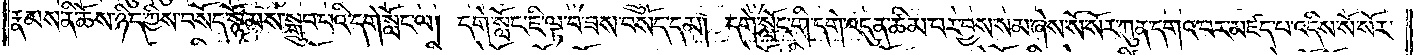རྣམས་ནི་ཆོས་ཉིད་ཀྱིས་བསོད་སྙོམས་སྒྲུབ་པའི་དགེ་སློང་ལ། དགེ་སློང་ཇི་ལྟ་བ་ཟས་བསོད་དམ། དགེ་སློང་གི་དགེ་འདུན་ཚིམ་པར་བྱས་སམ་ཞེས་སོ་སོར་ཀུན་དགའ་བར་མཛད་པ་འདིས་སོ་སོར་
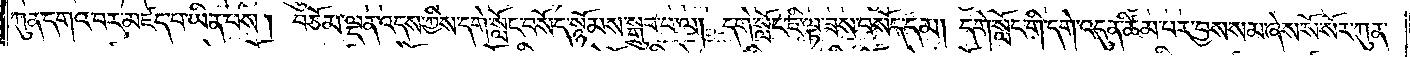ཀུན་དགའ་བར་མཛད་པ་ཡིན་པས། བཅོམ་ལྡན་འདས་ཀྱིས་དགེ་སློང་བསོད་སྙོམས་སྒྲུབ་པ་ལ། དགེ་སློང་ཇི་ལྟ་ཟས་བསོད་དམ། དགེ་སློང་གི་དགེ་འདུན་ཚིམ་པར་བྱས་སམ་ཞེས་སོ་སོར་ཀུན་
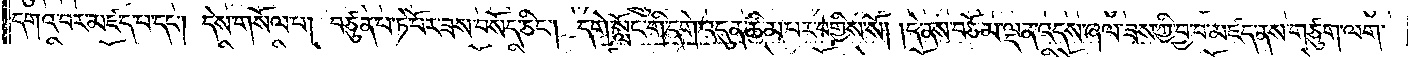དགའ་བར་མཛད་པ་དང༌། དེས་གསོལ་བ། བཙུན་པ་ཏེ་པོར་ཟས་བསོད་ཅིང༌། དགེ་སློང་གི་དགེ་འདུན་ཚིམ་པར་བགྱིས་སོ། །དེ་ནས་བཅོམ་ལྡན་འདས་ཞལ་ཟས་ཀྱི་བྱ་བ་མཛད་ནས་གཙུག་ལག་
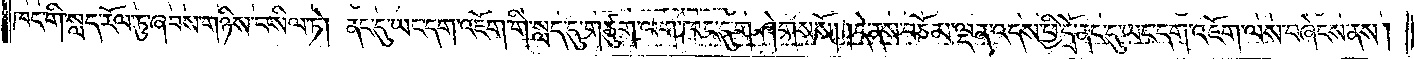ཁང་གི་སླད་རོལ་ཏུ་ཞབས་གཉིས་བསིལ་ཏེ། ནང་དུ་ཡང་དག་འཇོག་གི་སླད་དུ་གཙུག་ལག་ཁང་དུ་གཤེགས་སོ། །དེ་ནས་བཅོམ་ལྡན་འདས་ཕྱི་དྲོ་ནང་དུ་ཡང་དག་འཇོག་ལས་བཞེངས་ནས།
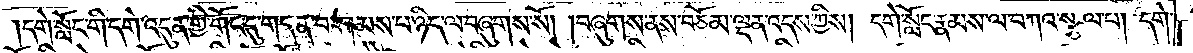དགེ་སློང་གི་དགེ་འདུན་གྱི་གོང་དུ་གདན་བཤམས་པ་ཉིད་ལ་བཞུགས་སོ། །བཞུགས་ནས་བཅོམ་ལྡན་འདས་ཀྱིས། དགེ་སློང་རྣམས་ལ་བཀའ་སྩལ་པ། དགེ་
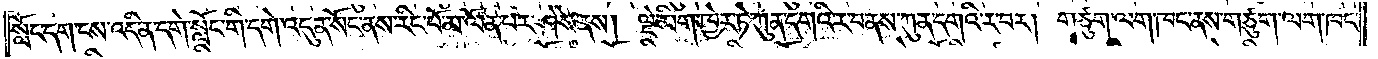སློང་དག་ངས་འདི་ན་དགེ་སློང་གི་དགེ་འདུན་སོང་ནས་རིང་པོ་མ་ལོན་པར་ཤེས་ནས། ལྡེ་མིག་ཁྱེར་ཏེ་ཀུན་དགའི་ར་བ་ནས་ཀུན་དགའི་ར་བར། གཙུག་ལག་ཁང་ནས་གཙུག་ལག་ཁང་
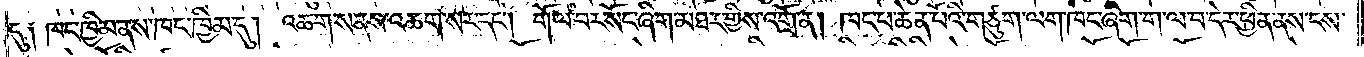དུ། ཁང་ཁྱིམ་ནས་ཁང་ཁྱིམ་དུ། འཆག་ས་ནས་འཆག་སར་དང༌། གོལ་བར་སོང་ཞིག་མཐར་གྱིས་འགྲོ་ན། ཁང་པ་ཆེན་པོའི་གཙུག་ལག་ཁང་ཞིག་ག་ལ་བ་དེར་ཕྱིན་ནས་ངས་
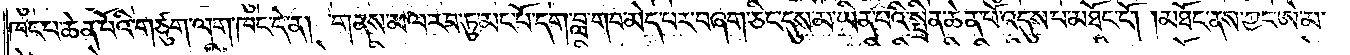ཁང་པ་ཆེན་པོའི་གཙུག་ལག་ཁང་དེ་ན། གནས་མལ་རབ་ཏུ་མང་པོ་དག་བླ་གབ་མེད་པར་བཞག་ཅིང་དུས་མ་ཡིན་པའི་སྤྲིན་ཆེན་པོ་འདུས་པ་མཐོང་ངོ༌། །མཐོང་ནས་ཀྱང་ཨེ་མ་
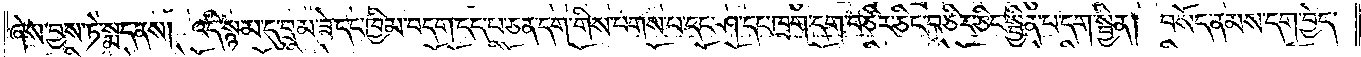ཞེས་བྱས་ཏེ་སྨད་ནས། འདི་སྙམ་དུ་བྲམ་ཟེ་དང་ཁྱིམ་བདག་དད་པ་ཅན་དག་གིས་པགས་པ་དང་ཤ་དང་ཁྲག་དག་བཙིར་ཅིང་བཙིར་ཅིང་སྦྱིན་པ་དག་སྦྱིན། བསོད་ནམས་དག་བྱེད་
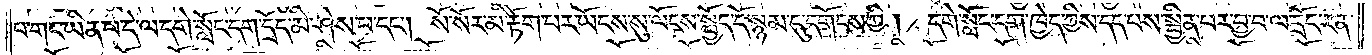པ་གང་ཡིན་པ་དེ་ལ་དགེ་སློང་དག་དྲོད་མི་ཤེས་པ་དང༌། སོ་སོར་མི་རྟོག་པར་ཡོངས་སུ་ལོངས་སྤྱོད་དོ་སྙམ་དུ་དགོངས་ཀྱི། དགེ་སློང་དག་ཁྱེད་ཀྱིས་དད་པས་སྦྱིན་པར་བྱ་བ་ལ་དྲོད་རན་
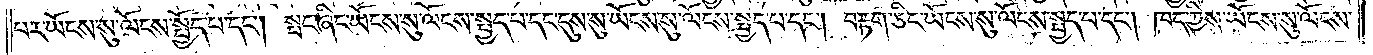པར་ཡོངས་སུ་ལོངས་སྤྱོད་པ་དང༌། སྤང་ཞིང་ཡོངས་སུ་ལོངས་སྤྱད་པ་དང་དུས་སུ་ཡོངས་སུ་ལོངས་སྤྱད་པ་དང༌། བརྟག་ཅིང་ཡོངས་སུ་ལོངས་སྤྱད་པ་དང༌། ཁད་ཀྱིས་ཡོངས་སུ་ལོངས་
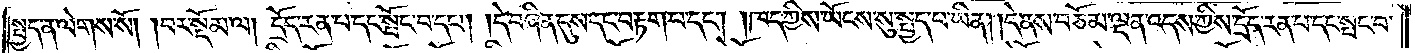སྤྱད་ན་ལེགས་སོ། །བར་སྡོམ་ལ། དྲོད་རན་པ་དང་སྤོང་བ་དང༌། དེ་བཞིན་དུས་དང་བརྟག་པ་དང༌། །ཁད་ཀྱིས་ཡོངས་སུ་སྤྱད་པ་ཡིན། དེ་ནས་བཅོམ་ལྡན་འདས་ཀྱིས་དྲོད་རན་པ་དང་སྤང་བ་
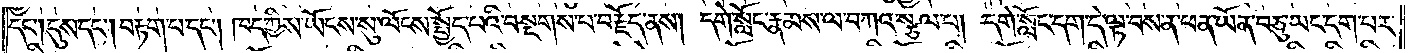དང༌། དུས་དང༌། བརྟག་པ་དང༌། ཁད་ཀྱིས་ཡོངས་སུ་ལོངས་སྤྱོད་པའི་བསྔགས་པ་བརྗོད་ནས། དགེ་སློང་རྣམས་ལ་བཀའ་སྩལ་པ། དགེ་སློང་དག་དེ་ལྟ་བས་ན་ཕན་ཡོན་བཅུ་ཡང་དག་པར་
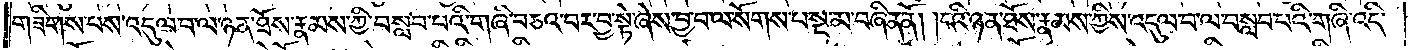གཟིགས་པས་འདུལ་བ་ལ་ཉན་ཐོས་རྣམས་ཀྱི་བསླབ་པའི་གཞི་བཅའ་བར་བྱ་སྟེ་ཞེས་བྱ་བ་ལ་སོགས་པ་སྔ་མ་བཞིན་ནོ། །ངའི་ཉན་ཐོས་རྣམས་ཀྱིས་འདུལ་བ་ལ་བསླབ་པའི་གཞི་འདི་
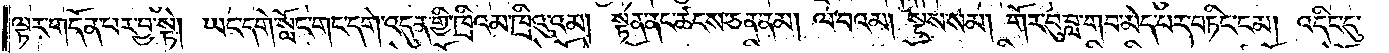ལྟར་གདོན་པར་བྱ་སྟེ། ཡང་དགེ་སློང་གང་དགེ་འདུན་གྱི་ཁྲིའམ་ཁྲིའུ་འམ། སྟན་ནང་ཚངས་ཅན་ནམ། ལ་བའམ། སྔས་སམ། གོར་བུ་བླ་གབ་མེད་པར་བཏིང་ངམ། འདིང་དུ་
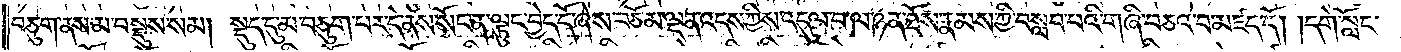བཅུག་ནས་མ་བསྡུས་སམ། སྡུད་དུ་མ་བཅུག་པར་དེ་ནས་སོང་ན་ལྟུང་བྱེད་དོ་ཞེས་བཅོམ་ལྡན་འདས་ཀྱིས་འདུལ་བ་ལ་ཉན་ཐོས་རྣམས་ཀྱི་བསླབ་པའི་གཞི་བཅའ་བ་མཛད་དོ། །དགེ་སློང་
